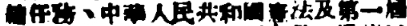總任務、中華人民共和國憲法及第一屆
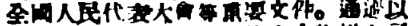全國人民代表大會等重要文件。通過以
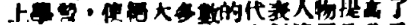上學習，使絕大多數的代表人物提高了
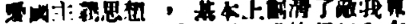愛國主義思想 ，基本上劃清了敵我界
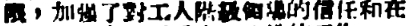限，加強了對工人階級領導的信任和在
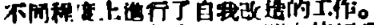不同程度上進行了自我改造的工作。
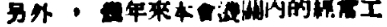另外 ，幾年來本會機關內的經常工
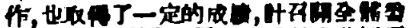作，也取得了一定的成績，計召開全體委
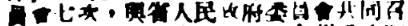員會七次，與省人民政府委員會共同召
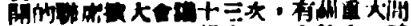開的聯席擴大會議十三次，有關重大問
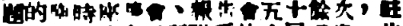題的臨時座談會、報告會五十餘次，駐
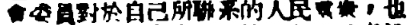會委員對於自己所聯系的人民羣衆，也
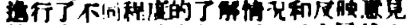進行了不同程度的了解情況和反映意見
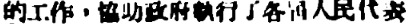的工作，協助政府執行了各界人民代表
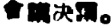會議決議。
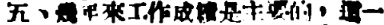五、幾年來工作成績是主要的，這一
